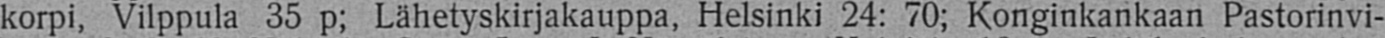korpi, Vilppula 35 p; Lähetyskirjakauppa, Helsinki 24: 70; Konginkankaan Pastorinvi-
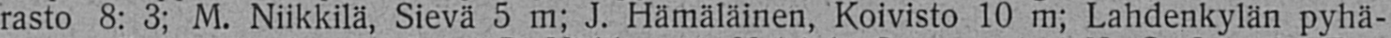rasto 8: 3; M. Niikkilä, Sievä 5 m; J. Hämäläinen, Koivisto 10 m; Lahdenkylän pyhä-
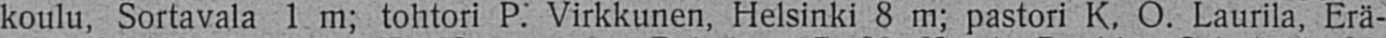koulu, Sortavala 1 m; tohtori P. Virkkunen, Helsinki 8 m; pastori K. O. Laurila, Erä-
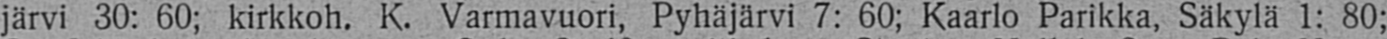järvi 30: 60; kirkkoh. K. Varmavuori, Pyhäjärvi 7: 60; Kaarlo Parikka, Säkylä 1: 80;
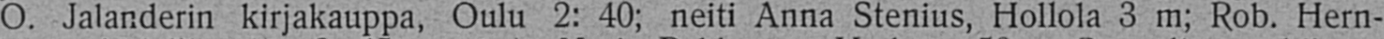O. Jalanderin kirjakauppa, Oulu 2: 40; neiti Anna Stenius, Hollola 3 m; Rob, Hern-
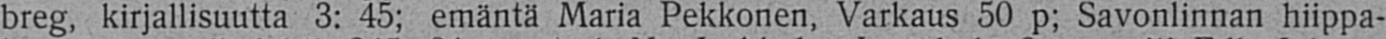breg, kirjallisuutta 3: 45; emäntä Maria Pekkonen, Varkaus 50 p; Savonlinnan hiippa-
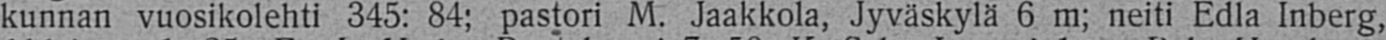kunnan vuosikolehti 345: 84; pastori M. Jaakkola, Jyväskylä 6 m; neiti Edla Inberg,
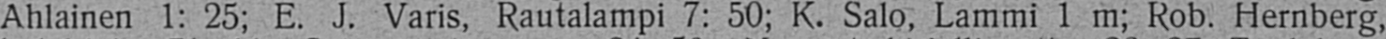Ahlainen 1: 25; E. J. Varis, Rautalampi 7: 50; K. Salo, Lammi 1 m; Rob. Hernberg,
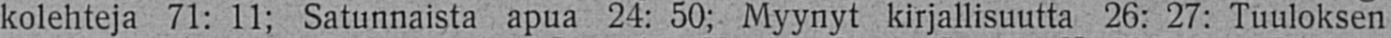kolehteja 71: 11; Satunnaista apua 24: 50; Myynyt kirjallisuutta 26: 27: Tuuloksen
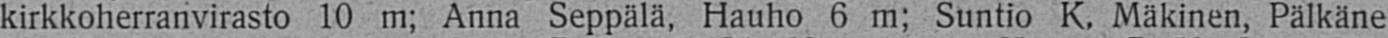kirkkoherranvirasto 10 m; Seppälä, Hauho 6 m; Suntio K. Mäkinen, Pälkäne
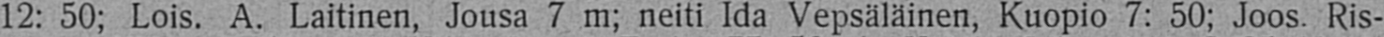12: 50; Lois, A. Laitinen, Jousa 7 m; neiti Ida Vepsäläinen, Kuopio 7: 50; Joos, Ris-
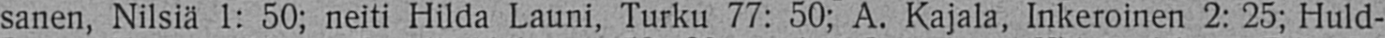sanen, Nilsiä 1: 50; neiti Hilda Launi, Turku 77: 50; A. Kajala, Inkeroinen 2: 25; Huld-
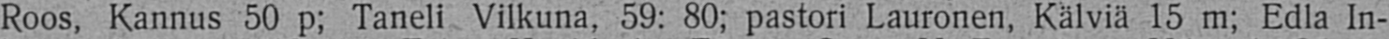Roos, Kannus 50 p; Taneli Vilkuna, 59: 80; pastori Lauronen, Kälviä 15 m; Edla In-
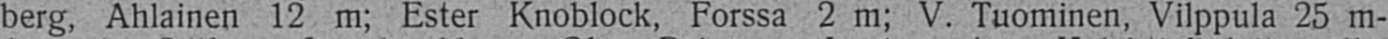berg, Ahlainen 12 m; Ester Knoblock, Forssa 2 m; V. Tuominen, Vilppula 25 m-
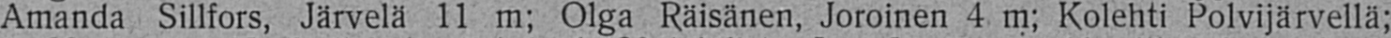Amanda Sillfors, Järvelä 11 m; Olga Räisänen, Joroinen 4 m; Kolehti Polvijärvella;
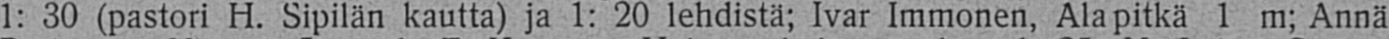1: 30 (pastori H. Sipilän kautta) ja 1: 20 lehdistä; Ivar Immonen, Ala pitkä 1 m; Annä
